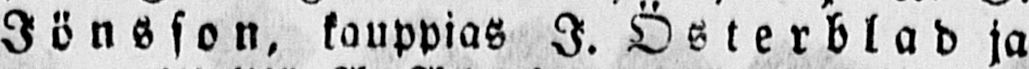Jönsson, kauppias I. Österblad ja
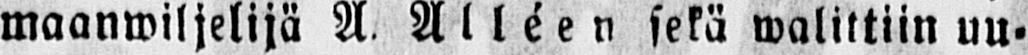maanwiljelijä A Alléen sekä walittiin uu-
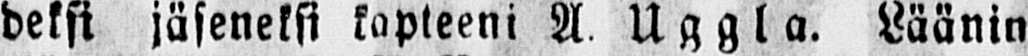deksi jäseneksi kapteeni A. Uggla. Läänin
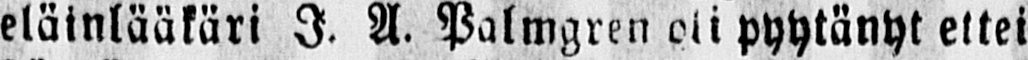eläinlääkäri I. A. Palmgren oli pyytänyt ettei
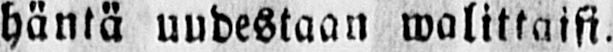häntä uudestaan walittaisi.
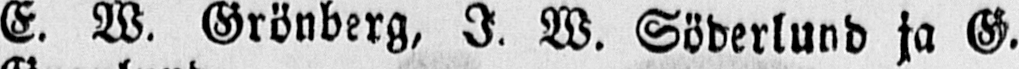E. W. Grönberg, I. W. Söderlund ja G.
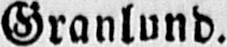Granlund.
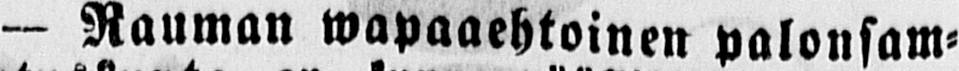— Rauman wapaaehtoinen palonsam-
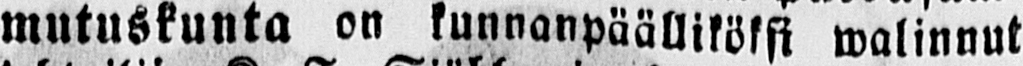mutuskunta on kunnanpäälliköksi walinnut
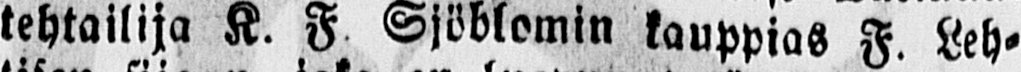tehtailija K. F Sjöblomin kauppias F. Leh-
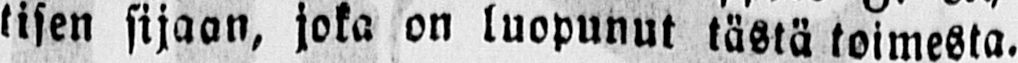tisen sijaan, joka on luopunut tästä toimesta.
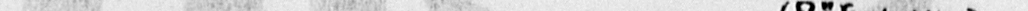(Lähetetty.)
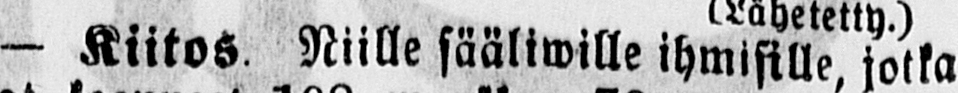- Kiitos. Niille sääliwille ihmisille, jotka
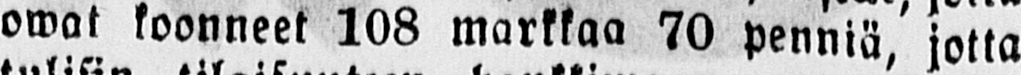owat koonneet 108 markkaa 70 penniä, jotta
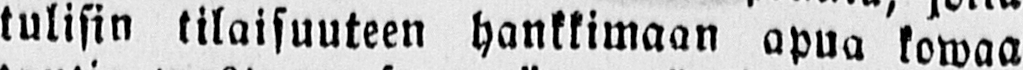tulisin tilaisuuteen hankkimaan apua kowaa
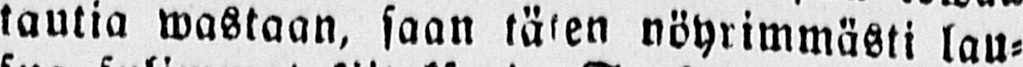tautia wastaan, saan täten nöyrimmästi lau-
